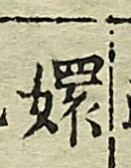嫘
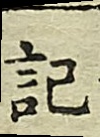記
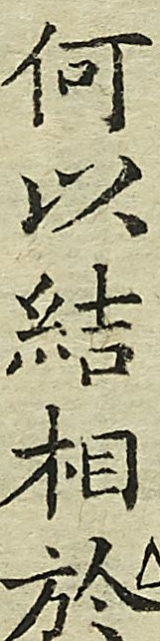何以結相於
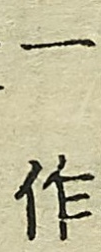一作
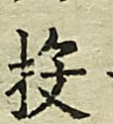投
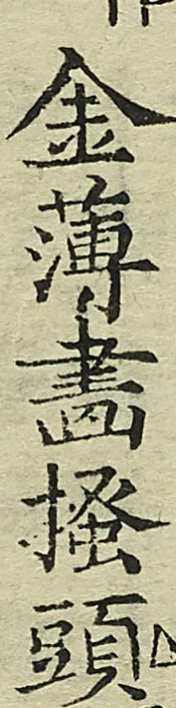金薄畫搔頭
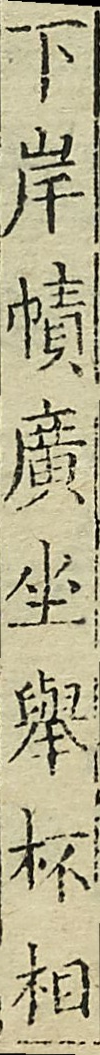下岸幘廣坐舉杯相
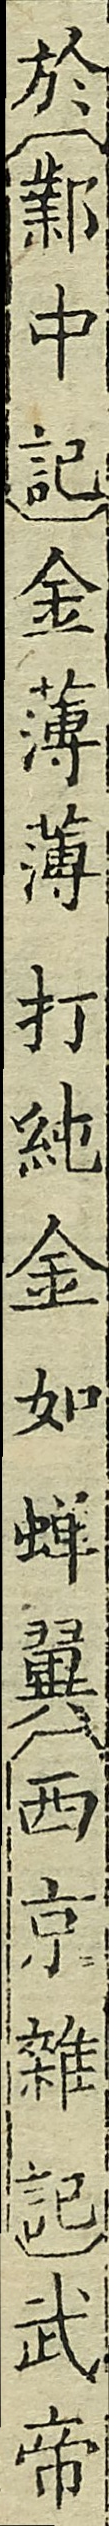於（鄴中記）金薄薄打純金如蟬翼（西京雜記)武帝
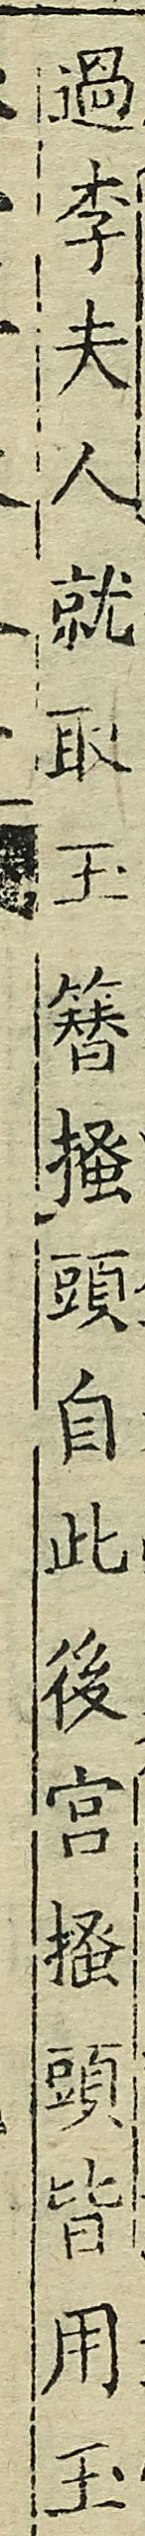過李夫人就取玉簪撩頭自此後宮撩頭皆用玉
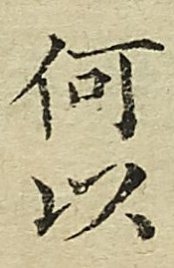何以
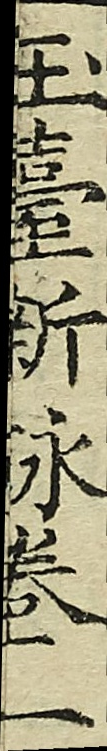玉臺新詠卷一
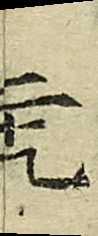二十九
